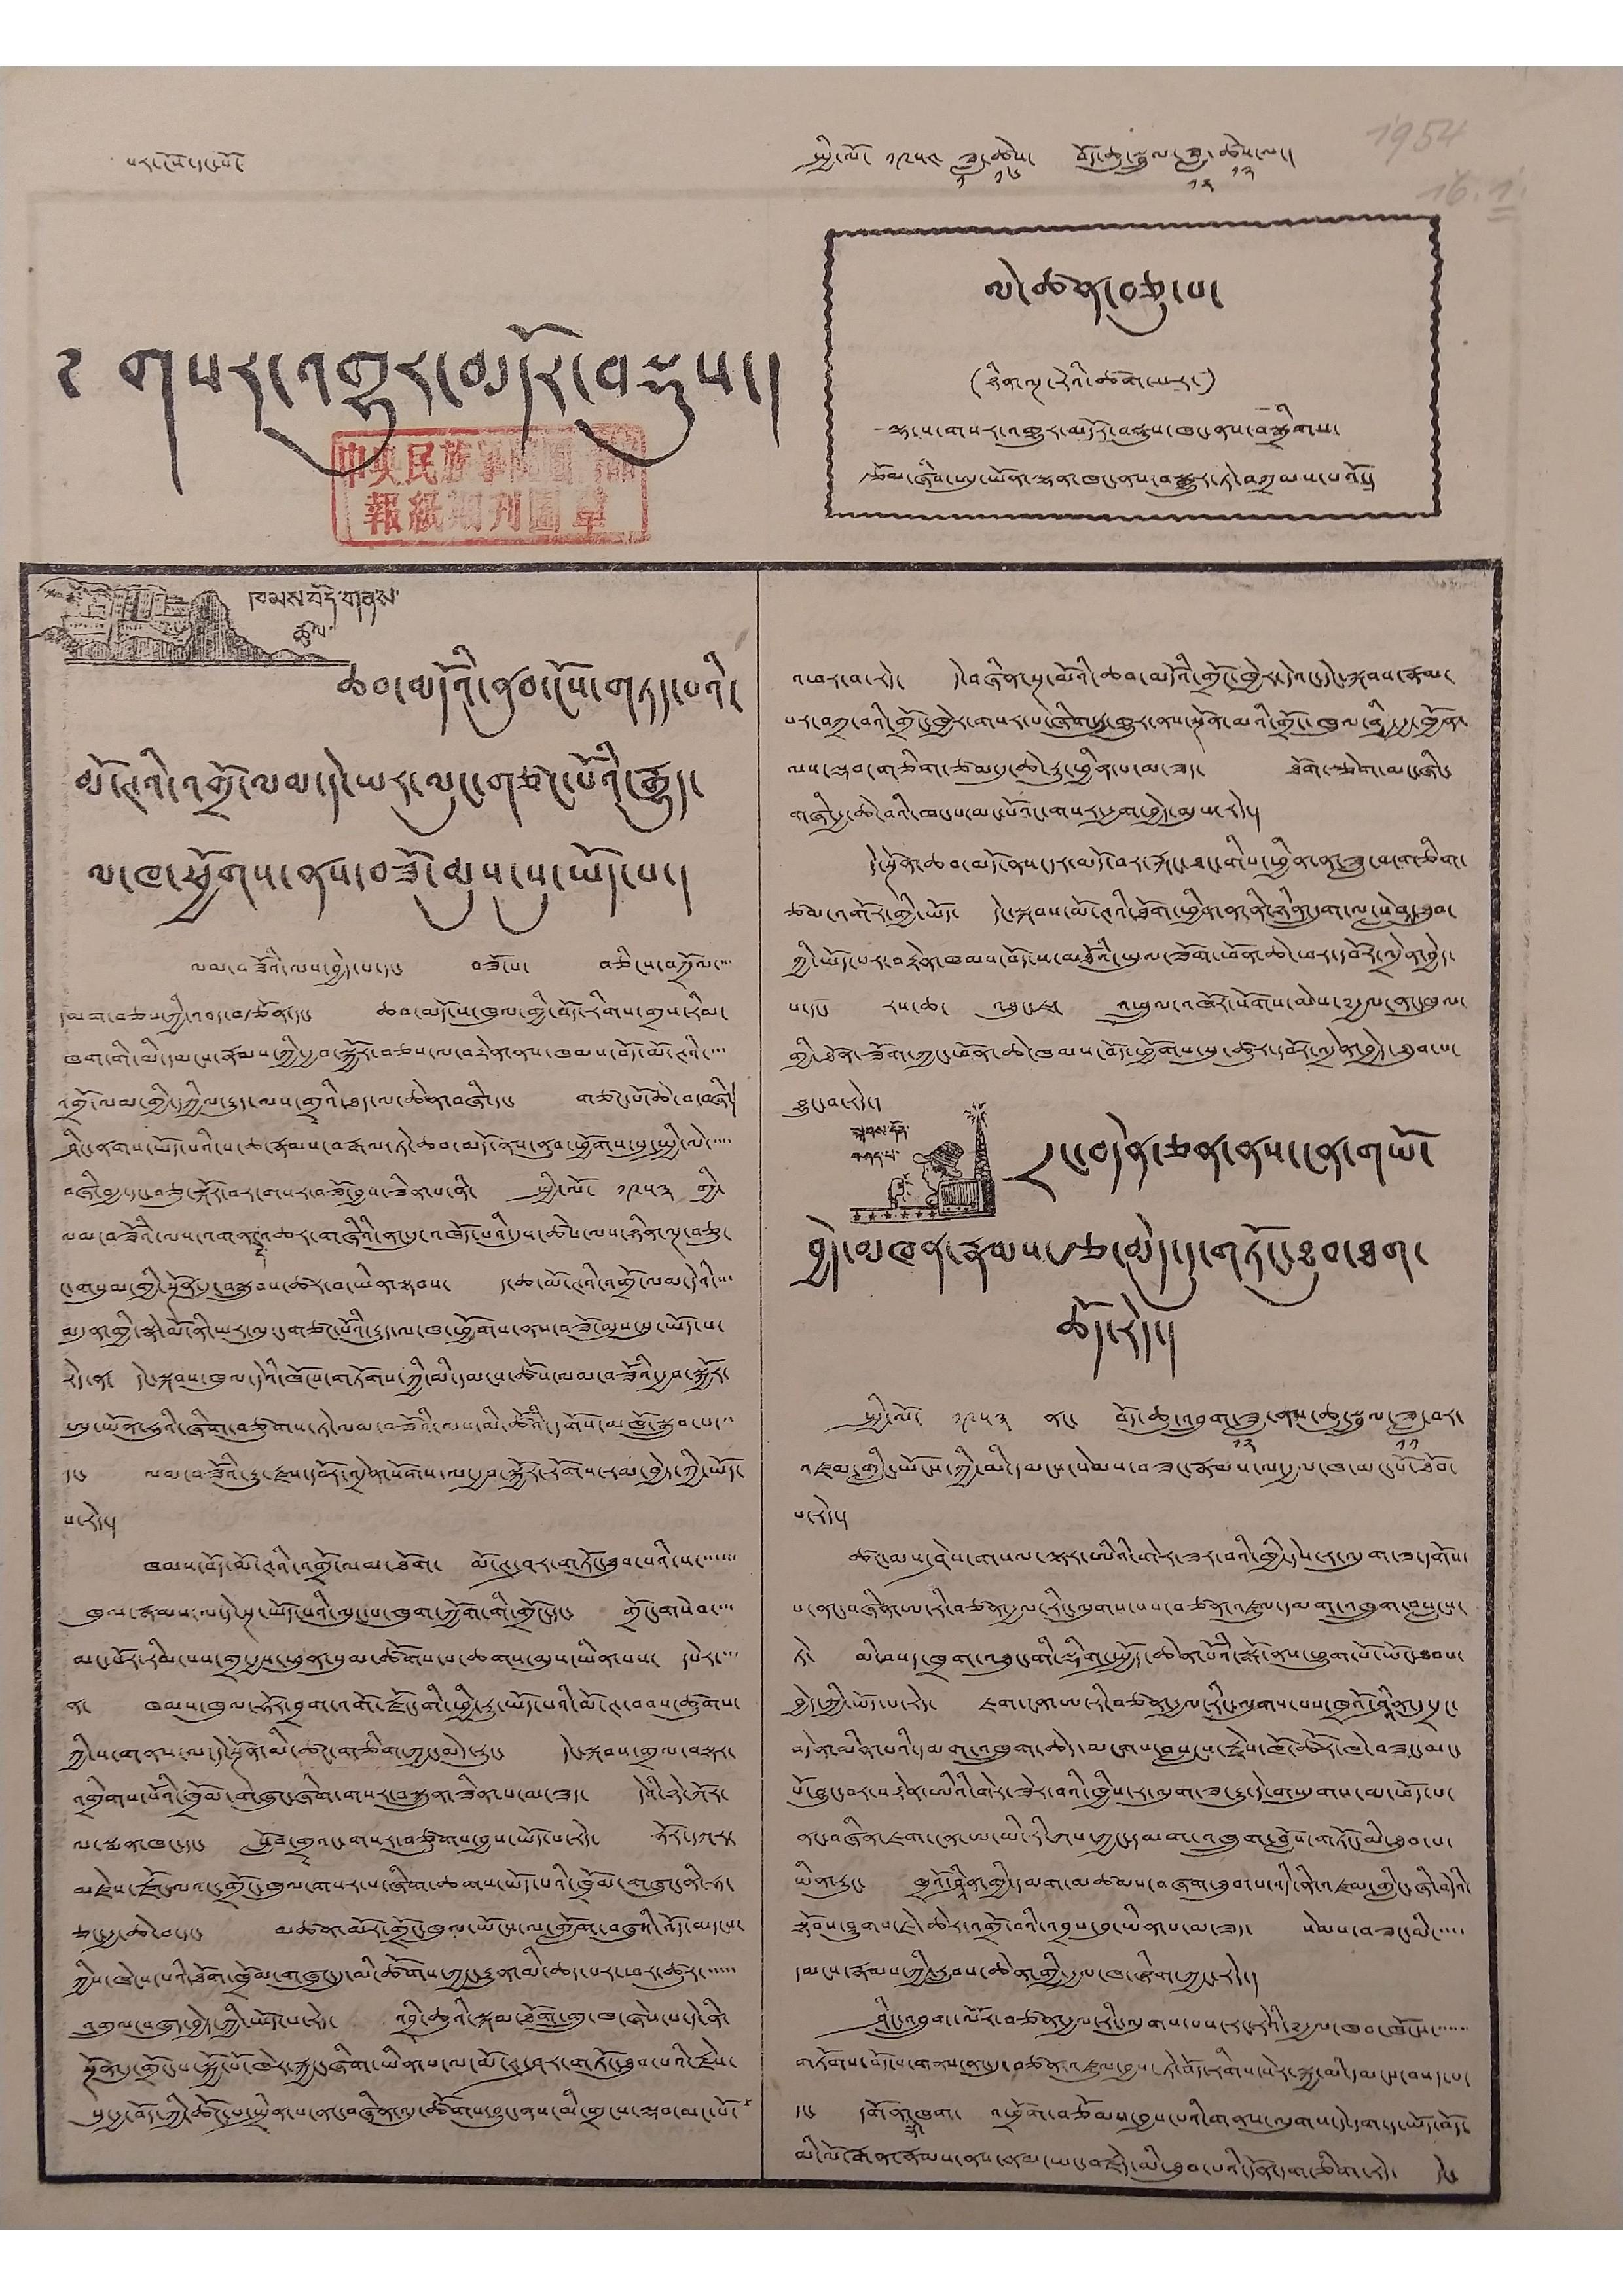པར་ངོས་དང་པོ སྤྱི་ལོ་ ༡༩༥༤ ཟླ་
༡
ཚེས་
༡༦
བོད་ཆུ་སྦྲུལ་ཟླ་
༡༢
ཚེས་
༡༢
ལ་།
༄ གསར་འགྱུར་མདོར་བསྡུས་།
ལེ་ཚན་བཅུ་པ་
(ཉིན་ལྔ་རེའི་ཚག་པར་)
ལྷ་ས་གསར་འགྱུར་མདོར་བསྡུས་ཁང་ནས་བསྒྲིགས་
རྩོམ་ཞིབ་ཨུ་ཡོན་ལྷན་ཁང་ནས་བསྒྱུར་ཏེ་འཀྲམས་པའོ་།
ཁམས་བོད་གནས་
ཚུལ་
ཆབ་མདོའི་ནུབ་ངོས་གཏད་པའི་
མོ་ཊའི་འགྲོ་ལམ་དེ་ཡར་ལུང་གཙང་པོའི་རྒྱུད་
ལ་ཁ་ཕྱོགས་ནས་བཟོ་མུས་སུ་ཡོད་པ་།
ལམ་བཟོའི་ལས་བྱེད་པ་དང་ བཟོ་པ་ བཅིངས་བཀྲོལ་་་་
དམག་བཅས་ཀྱི་འབད་བརྩོན་དང་ ཆབ་མདོ་ས་ཁུལ་གྱི་བོད་རིགས་གྲས་རིམ་
ཁག་གི་མི་དམངས་རྣམས་ཀྱི་རྒྱབ་སྐྱོར་བཅས་ལ་བརྟེན་ནས་ཁམས་བོད་མོ་ཊའི་་་་
འགྲོ་ལམ་གྱི་དཀྱིལ་རྒྱུད་ལས་གྲྭའི་ཐད་ལ་ཆེན་བཞི་དང་ གཙང་པོ་ཆེ་བ་བཞི་
ཤིང་ནགས་ཡོད་པའི་ས་ཆ་རྣམས་བརྒལ་ཏེ་ཆབ་མདོ་ནས་ནུབ་ཕྱོགས་སུ་སྤྱི་ལེ་་་་་
བཞི་བརྒྱ་དང་བཅུ་སྐོར་བར་གསར་བཟོ་བྱས་ཟིན་པ་ནི་ སྤྱི་ལོ་ ༡༩༥༣ གྱི་
ལམ་བཟོའི་ལས་འགན་ དེ་ འཆར་གཞིའི་ནང་དུ་འཁོད་པའི་དུས་ཚེས་ལས་ཉིན་ལྔ་བཅུ་
ང་གསུམ་གྱི་སྔོན་དུ་བསྒྲུབས་ཚར་བ་ཡིན་སྟབས་ ད་ཆ་མོ་ཊའི་འགྲོ་ལམ་དེའི་
མདུན་གྱི་སྣེ་མོ་ནི་ཡར་ལུང་གཙང་པོའི་རྒྱུད་ལ་ཁ་ཕྱོགས་ནས་བཟོ་མུས་སུ་ཡོད་པ་
རེད་ན་ དེངས་སྐབས་ཁུལ་དེའི་ཁོངས་གཏོགས་ཀྱི་མི་དམངས་ཚོས་ལམ་བཟོའི་རྒྱབ་སྐྱོར་
ཨུ་ཡོན་ཧུའི་ཞིབ་བཙུགས་ཏེ་ལམ་བཟོའི་ལས་མི་ཚོའི་དགོས་མཁོ་སྒྲུབ་པ་་་
དང་ ལམ་བཟོའི་རྒྱུ་རྫས་དབོར་འདྲེན་སོགས་ལ་རྒྱབ་སྐྱོར་རོགས་རམ་བྱེད་ཀྱི་ཡོད་
པ་རེད་།
ཁམས་བོད་མོ་ཊའི་འགྲོ་ལམ་ཐོག་ མོ་ཊ་ཤར་གཏོང་ཐུབ་པའི་ས་་་་་་་
ཁུལ་རྣམས་ལ་དེ་སྔ་ཡོད་པའི་ལུང་པ་ཁུག་ཀྱོག་གི་གྲོང་དང་ གྲོང་གསེབ་་་་
མང་པོར་རིམ་པས་གྲ་རྒྱས་ཕུན་སུམ་ཚོགས་པ་ཆགས་མུས་ཡིན་པས་ དཔེར་་་་
ན་ ཁམས་ཁུལ་ཧོར་བྲག་འགོ་རྫོང་གི་ཕྱི་རུ་ཡོད་པའི་མོ་ཊ་བབས་ཚུགས་
ཀྱི་ས་གནས་ལ་དེ་སྔོན་མི་ཚང་གཅིག་ཀྱང་མེད་རུང་ དེང་སྐབས་གྲལ་བསྟར་
འགྲིགས་པོའི་ཁྲོམ་གཞུང་ཞིག་གསར་བསྐྲུན་ཟིན་པ་མ་ཟད་ དེའི་ཉེ་ཀོར་
ལ་སྨན་ཁང་དང་སློབ་གྲྭའང་གསར་བཙུགས་བྱས་ཡོད་པ་རེད་ ཧོར་དཀར་
མཛེས་རྫོང་ལའང་གྲོང་ཁུལ་གསར་པ་ཞིག་ཆགས་ཡོད་པའི་ཁྲོམ་གཞུང་ནི་ཧ་
ཅང་རྒྱ་ཆེ་བ་དང་ མཚན་མོར་གྲོང་ཁུལ་ཡོངས་ལ་གློག་བཞུའི་འོད་མདངས་
ཀྱིས་ཁེངས་པའི་ཐོག་ཁྲོམ་གཞུང་དུ་མི་ཚོགས་ཀྱང་རྒྱུན་མི་ཆད་པར་ཕར་ཚུར་་་་་་
འགྲུལ་བཞུད་བྱེད་ཀྱི་ཡོད་པ་རེད་ འབྲི་ཆུའི་སྐམ་ཐོག་གྲུ་ཁ་ཞེས་པ་དེ་ནི་
སྔོན་དུ་གྲོང་པ་སྐྱོ་པོ་ཁེར་རྐྱང་ཞིག་ཡིན་པ་ལ་མོ་ཊ་ཤར་གཏོང་ཐུབ་པའི་རྗེས་
སུ་རྒྱ་བོད་ཀྱི་ཚོང་པ་སྤྲིན་པ་ནང་བཞིན་དུ་ཚོགས་བྱུང་ནས་མི་གྲངས་ལྡབ་མང་པོ་
འཕར་བ་རེད་ དེ་བཞིན་སྔ་མོའི་ཆབ་མདོའི་གྲོང་ཁྱེར་དེའང་དེང་སྐབས་རྣམ་
པར་བཀྲ་བའི་གྲོང་ཁྱེར་གསར་པ་ཞིག་ཏུ་གྱུར་ནས་སྔོན་མའི་གྲོང་ཁུལ་གྱི་རྒྱ་ཁྱོན་
ལས་ལྡབ་གཅིག་ཙམ་དུ་ཆེ་རུ་ཕྱིན་པ་མ་ཟད་ ཐོག་རྩེག་མང་ཞིང་
གཞི་རྒྱ་ཆེ་བའི་ཁང་པ་མང་པོའང་གསར་རྒྱག་བྱེད་མུས་རེད་།
དེ་སྔོན་ཆབ་མདོ་ནས་དར་མདོ་བར་རྐང་ཐང་གིས་ཕྱིན་ན་ཟླ་བ་གཅིག་
ཙམ་འགོར་གྱི་ཡོད་ དེང་སྐབས་མོ་ཊའི་ཐོག་ཕྱིན་ན་ནི་ཉིན་དྲུག་ལ་སླེབ་ཐུབ་
ཀྱི་ཡོད་པར་བརྟེན་ཁམས་བོད་ས་མཐོའི་ཡུལ་ཟོག་ཕོན་ཆེ་བར་དབོར་འདྲེན་བྱེད་
པ་དང་ རས་ཆ་ འཐུང་ཇ་ འཕྲུལ་འཁོར་སོགས་མེས་རྒྱལ་ནང་ཁུལ་
གྱི་ཐོན་ཟོག་ཀྱང་ཕོན་ཆེ་ཁམས་བོད་ཕྱོགས་སུ་ཚུར་དབོར་འདྲེན་བྱེད་ཐུབ་པ་
བྱུང་བ་རེད་།
སྐབས་དོན་
བཤད་པ་
དྲང་བདེན་ཅན་ནས་ངན་ག་ཡོ་
བྱེད་མཁན་རྣམས་རྩ་མེད་དུ་གཏོང་ཐུབ་ཐག་
ཆོད་རེད།
སྤྱི་ལོ་ ༡༩༥༣ ནང་ བོད་ཆུ་འབྲུག་ཟླ་
༡༢
ནས་ཆུ་སྦྲུལ་ཟླ་
༡༡
བར་
འཛམ་གླིང་ཡོངས་ཀྱི་མི་དམངས་སེམས་བཟང་རྣམས་ལ་རྒྱལ་ཁ་མང་པོ་ཐོབ་
པ་རེད་།
ཚང་མས་ཤེས་གསལ་ལྟར་ཨིའི་གེར་ཟར་བའི་ཁྱི་དེས་ར་ལུག་ཟ་དགོས་
པ་ནང་བཞིན་ཨ་རི་བཙན་རྒྱལ་རིང་ལུགས་པས་བཙན་འཛུལ་དམག་འཁྲུག་བསླངས་
ཏེ་ མི་བསད་ཁྲག་འཐུང་གི་ལྡིག་སྤྱོད་ཆེན་པོའི་སྒོ་ནས་ཕྱུག་པོ་ཡོང་ཐབས་
བྱེད་ཀྱི་ཡོད་པ་རེད་ ཇག་ངན་ཨ་རི་བཙན་རྒྱལ་རིང་ལུགས་པས་ཁྲའོ་ཤཱིན་དུ་དྲང་
བདེན་མིན་པའི་དམག་འཁྲུག་ཆེད་མངགས་བསླངས་རྗེས་ཁོ་ཚོར་ཁེ་བཟང་མང་
པོ་བྱུང་བར་བརྟེན་ཨིའི་གེར་ཟེར་བའི་ཁྱི་ར་ལུག་ཟ་རྒྱུ་དེ་ག་ཡུགས་མ་ཕོད་པ་
ནང་བཞིན་ཇག་ངན་ཨ་རི་ཀས་ཀྱང་དམག་འཁྲུག་བློས་གཏོང་མི་ཐུབ་པ་
ཡིན་རུང་ ཁྲའོ་ཤཱིན་གྱི་དམག་མཚམས་བཞག་ཐུབ་པ་འདི་ནི་འཛམ་གླིང་ཞི་བདེའི་
སྟོབས་ཤུགས་ཇེ་ཆེར་འགྲོ་བའི་འབྲས་བུ་ཡིན་པ་མ་ཟད་ སེམས་བཟང་མི་་་་་
དམངས་རྣམས་ཀྱི་རླབས་ཆེན་གྱི་རྒྱལ་ཁ་ཞིག་ཀྱང་རེད་།
ཤིང་འབྲུག་ལོར་བཙན་རྒྱལ་རིང་ལུགས་པས་རང་རེའི་རྒྱལ་ཁབ་ཁོངས་་་་་་་
གཏོགས་བོད་ས་གནས་ནང་དུ་བཙན་འཛུལ་བྱས་ཏེ་བོད་རིགས་སེར་སྐྱ་མི་དམངས་བསད་པ་
དང་ དགོན་
སྡེ་
ཁག་ འཕྲོག་བཅོམས་བྱས་པའི་གནས་ལུགས་དེ་དག་ད་ཡོད་བོད་
མི་ལོ་རྒན་རྣམས་ནས་ཡང་བརྗེད་མི་ཐུབ་པའི་དོན་དག་ཅིག་རེད་ དེང་
